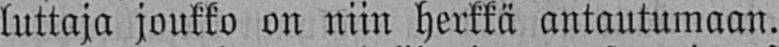luttaja joukko on niin herkkä antautumaan.
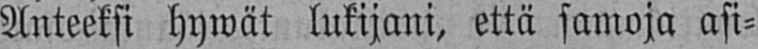Anteeksi hywät lukijani, että samoja asi-
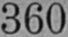360
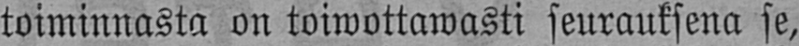toiminnasta on toiwottawasti seurauksena se,
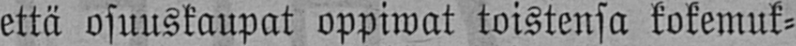että osuuskaupat oppiwat toistensa kokemuk-
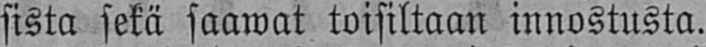sista sekä saawat toisiltaan innostusta.
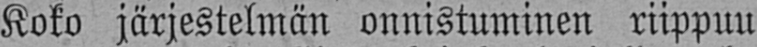Koko järjestelmän onnistuminen riippuu
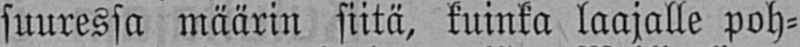suuressa määrin siitä, kuinka laajalle poh-
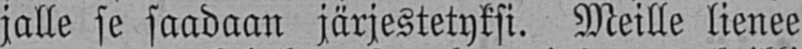jalle se saadaan järjestetyksi. Meille lienee
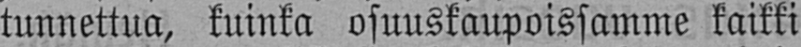tunnettua, kuinka osuuskaupoissamme kaikki
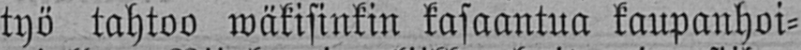työ tahtoo wäkisinkin kasaantua kaupanhoi-
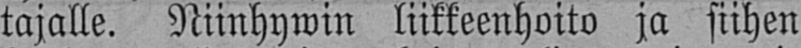tajalle. Niinhywin liikkeenhoito ja siihen
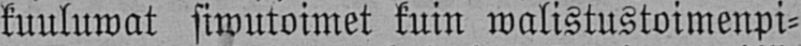kuuluwat siwutoimet kuin walistustoimenpi-
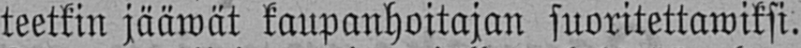teetkin jääwät kaupanhoitajan suoritettawiksi.
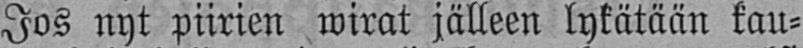Jos nyt piirien wirat jälleen lykätään kau-
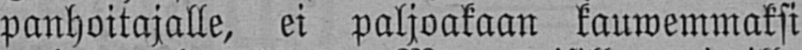panhoitajalle, ei paljoakaan kauwemmaksi
